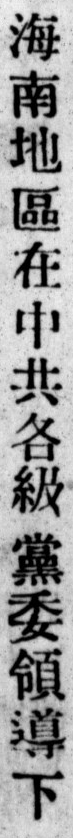海南地區在中共各級黨委領導下
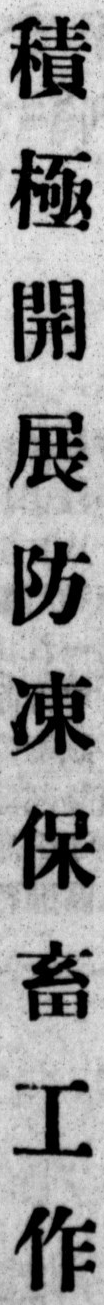積 極 開 展 防 凍 保 畜 工 作
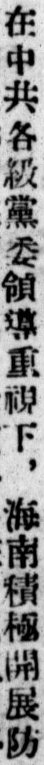在中共各級黨委領導重視下，海南積極開展防
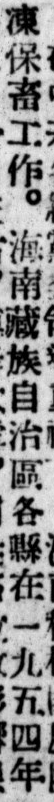凍保畜工作。海南藏族自治區各縣在一九五四年
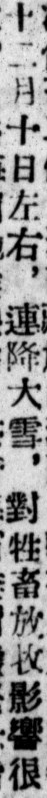十二月十日左右，連降大雪，對牲畜放牧影響很
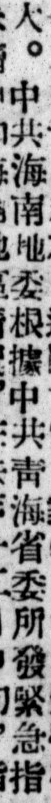大。中共海南地委根據中共靑海省委所發禁忌指
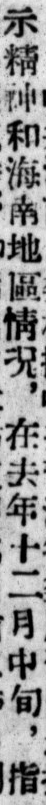示精神和海南地區情況，在去年十二月中旬，指
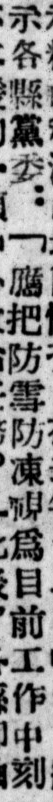示各縣黨委：「應把防雪防凍視爲目前工作中刻
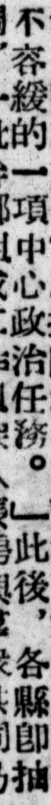不容緩的一項中心政治任務。」此後，各縣卽抽
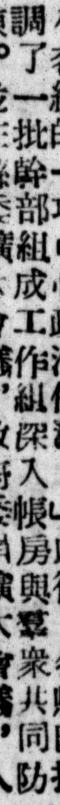調了一批幹部組成工作組深入帳房與羣衆共同防
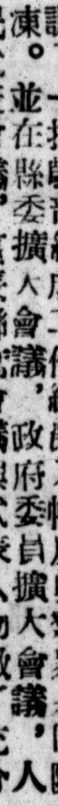凍。並在縣委擴大會議，政府委員擴大會議，人
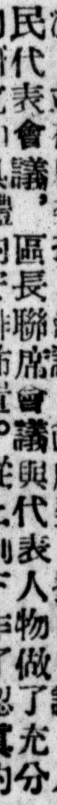民代表會議，區長聯席會議與代表人物作了充分
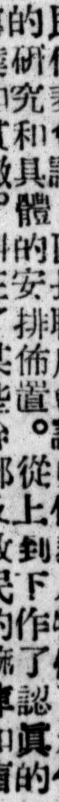的研究和具體的安排佈置。從上到下作了認眞的
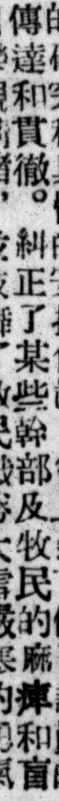傳達和貫徹。糾正了某些幹部及牧民的麻痹和盲
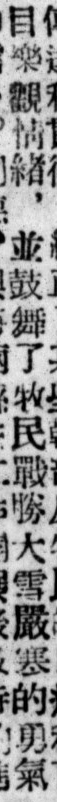目樂觀情緒，並鼓舞了牧民戰勝大雪嚴寒的勇氣
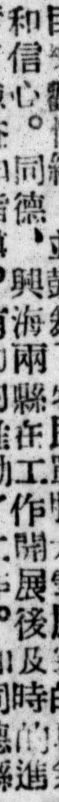和信心。同德、興海兩縣在工作開展後及時的進
